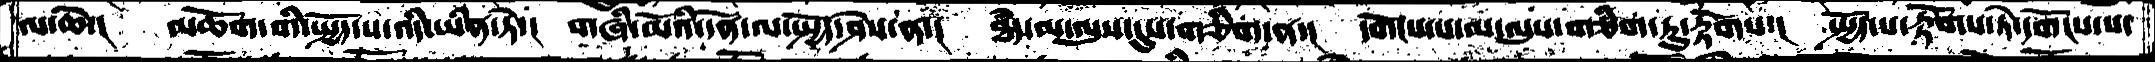ལ་ཆེ་། མཆོག་གི་སྤྱོད་པ་འདི་ཡིན་ཏེ་།  གཞི་མོའི་དོན་ལ་སྤྱོད་ཤེས་ན་།  ཐཾད་མ་ལུས་དུས་གཅིག་ན་།  དགོངས་པ་མ་ལུས་གཅིག་ཏུ་རྟོགས་།  སྤྱོད་པ་རྟོགས་ཏེ་དགོངས་པ་
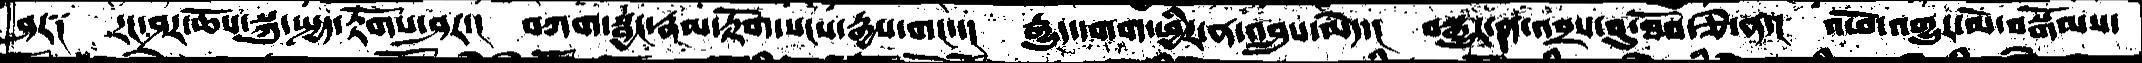ཤར༑  རང་ཤར་ཆོས་སྐུ་སྤྱད་རྟོགས་ཤར་།  བཀག་སྦྱང་རྣམ་རྟོག་སངས་རྒྱས་གང་་།  རྒྱུད་དགག་ཕྱིར་ན་འབྲུས་མེད་།  བསྒྱུར་ན་འབྲས་བུ་ཐོབ་ཅེ་ན་།  འཕོ་འགྱུར་མེ་བསྒོམས་
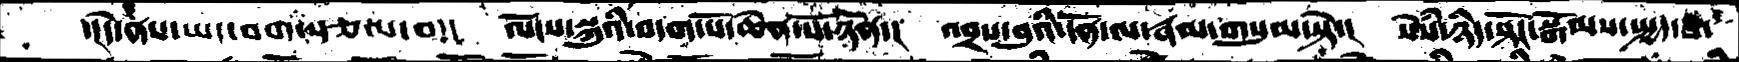་།དེ་ནས་ཡང་བག་སྩལ་བ།།།   ལོངས་སྐུའི་བདག་པོ་ཆེན་པོ་ཉོན་།   འབྲས་བུའི་དོན་ལ་རྣམ་གསུམ་སྟེ་།   སེཾས་ཉིད་སྟོང་སྒོམས་སྤྱད་
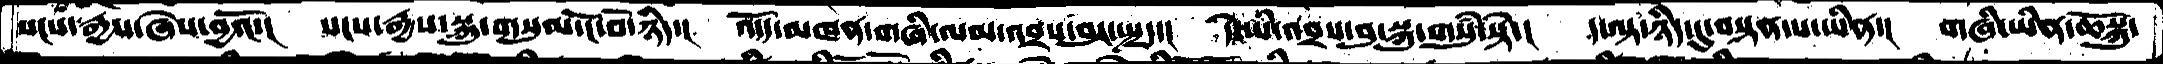སངས་རྒྱས་ཞེས་བྱའོ་།   སངས་རྒྱས་སྐུ་གསུམ་ངོ་བོ་ཉིད་།  འདོད་མཁན་གཞི་ལམ་འབྲས་བུར་སྤྱད་།   དེ་ཡི་འབྲས་བུ་སྐུ་གསུཾ་སྟེ་།   ད་ལྟ་ཉིད་དུ་བསྟན་པ་ཡིན་།   གཞི་ཡིན་ཆོསྐུ་
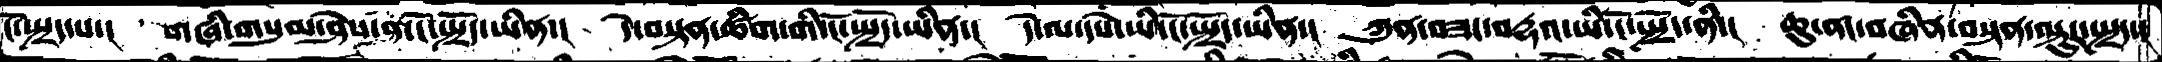ངོ་སྤྲད་པ་།   གཞི་གསུམ་ཤེས་ན་ངོ་སྤྲོད་ཡིན་།   དེ་བསྟན་ཚིག་གི་ངོ་སྤྲོད་ཡིན་།   དེ་ལ་དཔེ་ཡི་ངོ་སྤྲོད་ཡིན་།   ཀུན་བཟང་བདྷའ་ཡི་ངོ་སྤྲོད་ནི་།   ཆུ་ནང་བཞིན་བསྟན་ལྟུར་སྤྲད་།
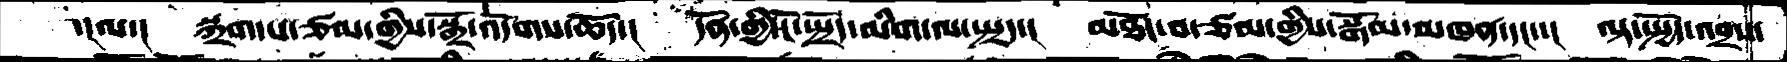་།ལ་།  སྐྲག་པ་ཙམ་གྱིས་སྒྲོ་འདོགས་ཆོད་།  དོན་གྱི་ངོ་སྤྲོད་མིག་ལ་སྤྲད་།  མཐོང་བ་ཙམ་གྱིས་སྒོམ་མཁན་དང་་།  ལྟ་སྤྱོད་འབྲས་
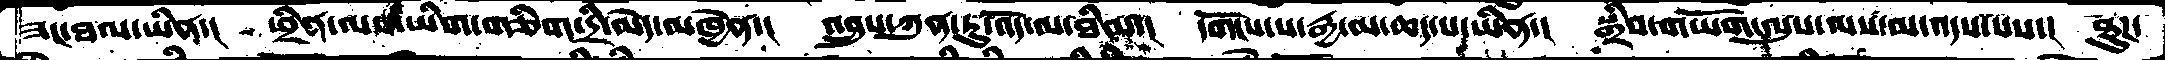ཟང་ཐལ་ཡིན་།  ཕྲིན་ལས་ཡིག་གཅིག་དྲི་མེད་མཁྱེན་།  འབྲུས་ཀུན་ཏུ་འོད་ལ་ཐིམ་།  དགོངས་པ་རྒྱ་མ་ཆད་པ་ཡིན་།  སྒྲིབ་གཡོག་ལུས་ལས་མ་འདས་པས་།  ཐུཌ་
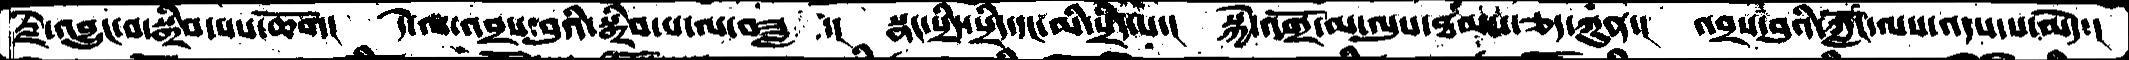རྗེ་འབྱུང་བ་སྒྲིབ་པས་ཆོག།  དེ་ལ་འབྲས་བུའི་སྒྲིབ་པ་ལ་བཟླ ་།  སྣང་སྲིད་སྲིད་དང་མི་སྲིད་ལ་།  སྐྱེ་འགྲོ་མ་ལུས་ཐམས་ཅད་ཀུན་།  འབྲས་བུའི་ཀློང་ལས་འདས་པ་མེད་།
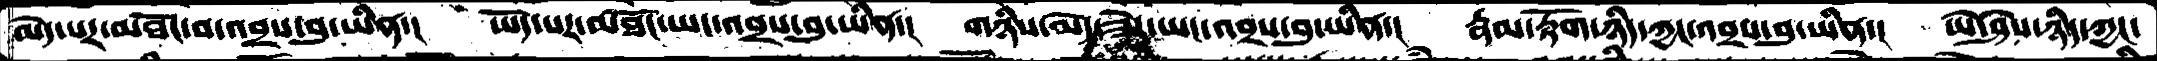མེད་པར་མཐོང་བ་འབྲས་བུ་ཡིན་།  ཡོད་པར་མཐོང་ཡང་འབྲས་བུ་ཡིན་།  གཉིས་མེད་ཟེར་ཡང་འབྲས་བུ་ཡིན་་།  རྣམ་རྟོག་ཉིད་ཀྱང་འབྲས་བུ་ཡིན་།  ཡེ་ཤེས་ཉིད་ཀྱང་
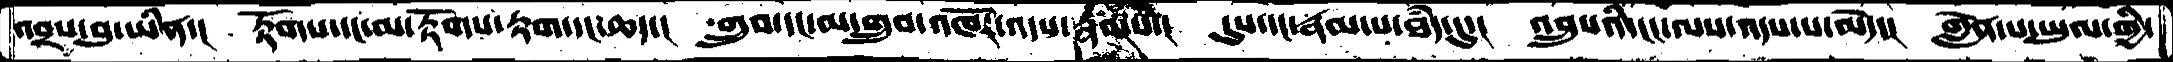འབྲས་བུ་ཡིན་།  རྟོགས་དང་མ་རྟོགས་རྟག་དང་ཆད་།  གྲུབ་དང་མ་གྲུབ་འཁོར་འདས་རྣམས་།  དུས་དང་རྣམ་པ་ཐདཾ་དུ་།  འབྲུའི་ངང་ལས་འདས་པ་མེད་།  གླེན་པ་ཡུལ་གྱི་
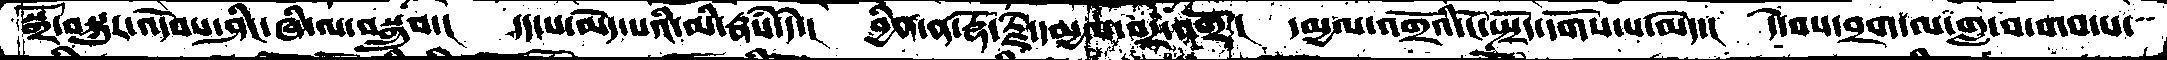སྒྲོ་བསྐུར་འདེབས་ཤིང་ཞི་ལ་བསྒྲུབ་།  དད་པ་མེད་པའི་མི་རྣཾས་དེ་།  བྱིན་ན་རྡོ་རྗེ་དམྱལ་བར་འགྲོ་།  དམྱལ་འགྲོའི་ངོ་སྤྲོད་དགོས་པ་མེད་།  དེ་བས་བྲག་གླ་བ་གབ་པ་
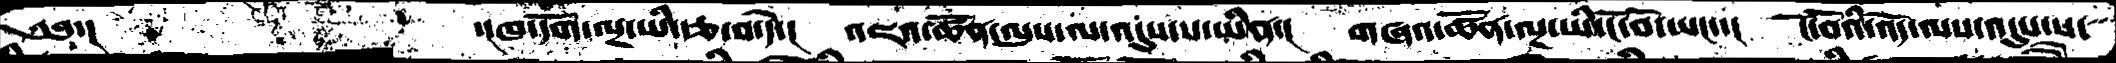༄༅་།      ་།ཁ་དོག་ལྔ་ཡི་རྩ་བ་དེ་།  འཇའ་ཚོན་ལུས་ལ་འདུས་པ་ཡིན་།  གཞའ་ཚོན་ལྔ་ཡི་ངོ་བོ་ཡང་་།  ངོ་བོའི་འོད་ལས་འདུས་པ་
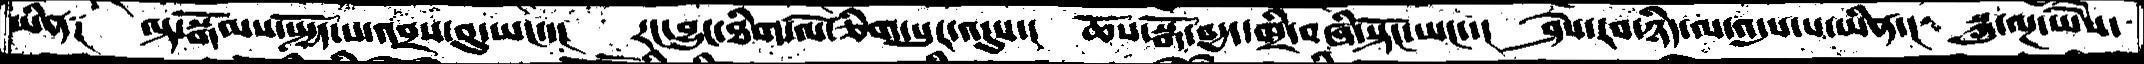ཡིན༑  ལྟ་སྒོམས་སྤྱོད་པ་འབྲས་བུ་ཡང་་།  རང་བྱུང་ཐིག་ལེ་ཅིག་པུར་འདུས་།  ཆོས་སྒོ་བདྱད་ཁྲི་བཞི་སྟོང་ཡང་།  ཤེས་རབ་ཉིད་ལ་འདུས་པ་ཡིན་།   སྐུ་ལྔ་ཡཻས་
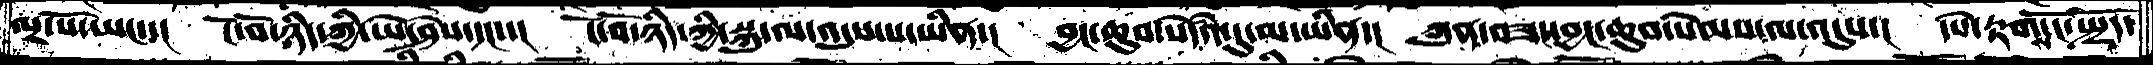ལྔ་པོ་ཡང་་།  ངོ་བོ་ཉིད་ཀྱི་ཡེ་ཤེས་དང་་།  ངོ་བོ་ཉིད་ཀྱི་སྐུ་ལ་འདུས་པ་ཡིན་།  བྱང་ཆུབ་སེཾདའ་དུ་མ་ཡིན་།  ཀུན་བཟང་བྱང་ཆུབ་སེམས་ལ་འདུས་།  དཔེ་རྟག་ངོ་སྤྲོད་
